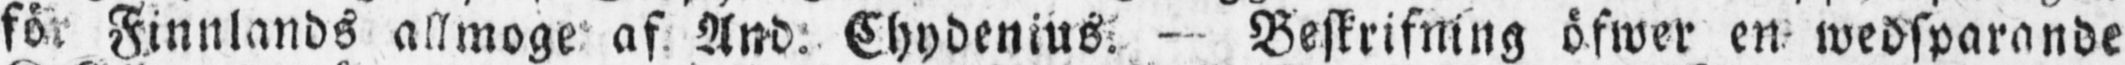för Finnlands allmoge af And. Chydenius. - Beskrifning öfwer en wedsparande
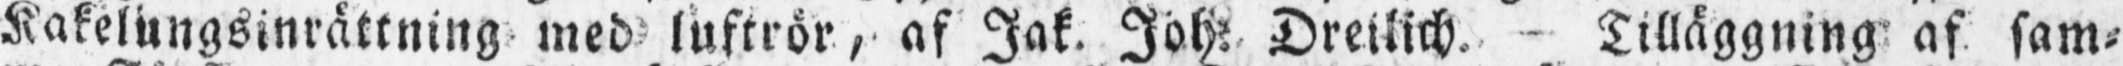Kakelungsinrättning med luftrör, af Jak. Joh. Dreilich. - Tilläggning af sam-
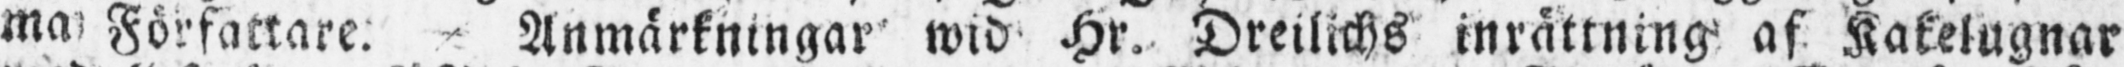ma Författare. Anmärkningar wid Hr. Dreilichs inrättning af Kakelugnar
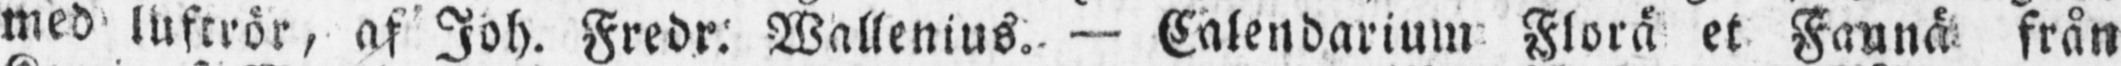med luftrör, af Joh. Fredr. Wallenius. — Calendarium Florä et Faunä från
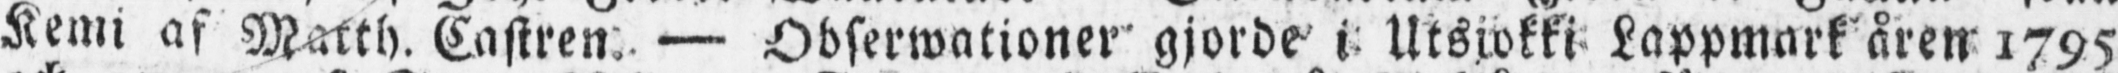Kemi af Matth. Castren. — Obserwationer gjorde i Utsjokki Lappmark åren 1795
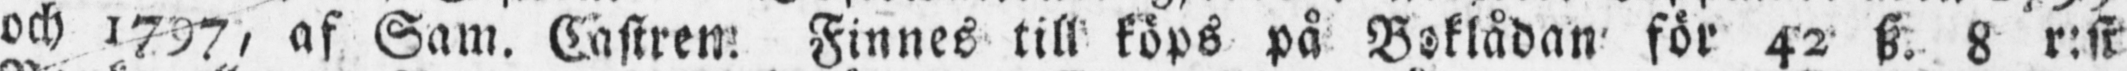och 1797, af Sam. Castren. Finnes till köps på Boklådan för 42 sz. 8 r:sr
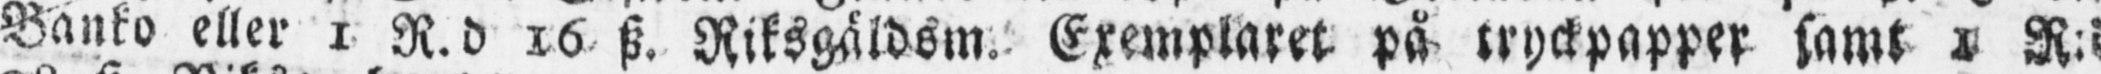Banko eller 1 R.d 16 sz. Riksgäldsm. Exemplaret på tryckpapper samt 1 R:d
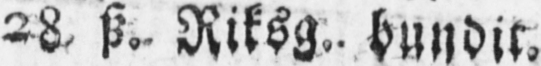28 sz. Riksg. bundit.
